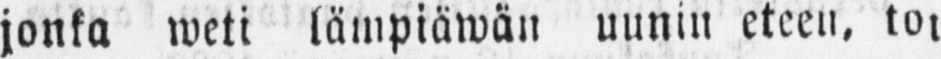jonka weti lämpiäwän uunin eteen, toi,
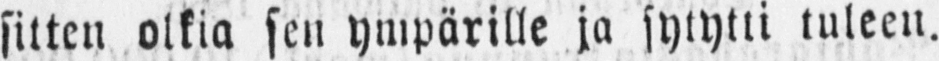sitten olkia sen ympärille ja sytytti tuleen.
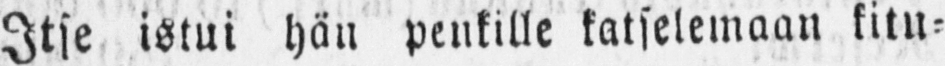Itse istui hän penkille katselemaan kitu-
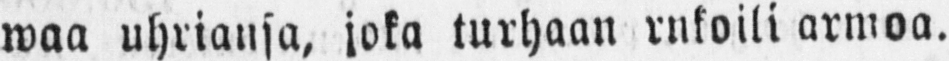waa uhriansa, joka turhaan rukoili armoa.
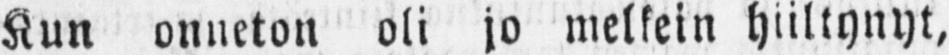Kun onneton oli jo melkein hiiltynyt,
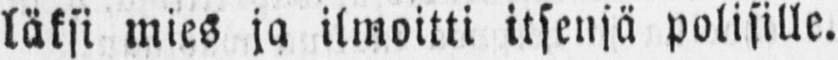läksi mies ja ilmoitti itsensä polisille.
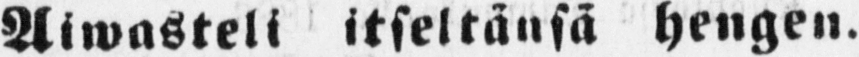Aiwasteli itseltänsä hengen.
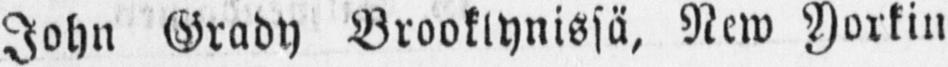John Grady Brooklynissä, New Yorkin
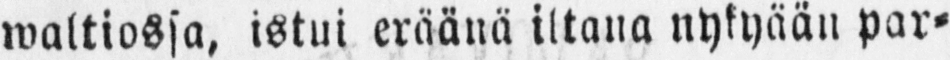waltiossa, istui eräänä iltana nykyään par-
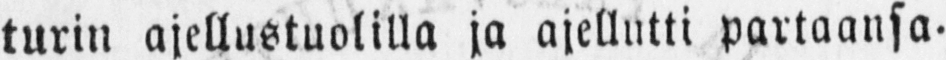turin ajellustuolilla ja ajellutti partaansa-
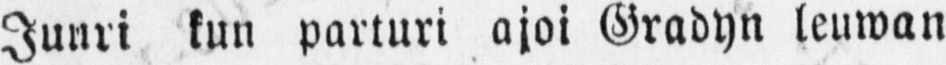Juuri kun parturi ajoi Gradyn leuwan
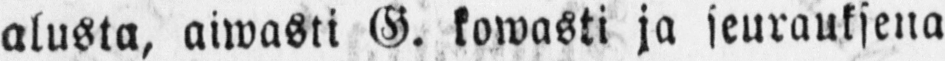alusta, aiwasti G. kowasti ja seurauksena
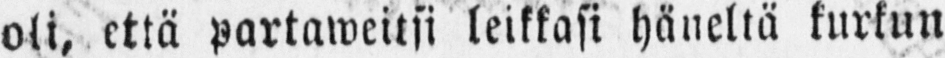oli, että partaweitsi leikkasi häneltä kurkun
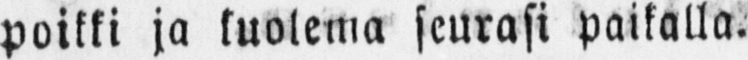poikki ja kuolema seurasi paikalla.
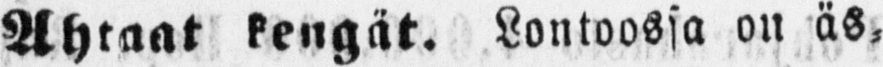Ahtaat kengät. Lontoossa on äs-
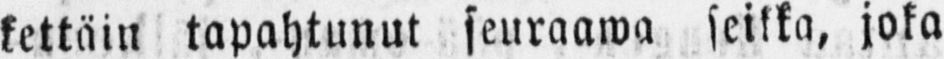kettäin tapahtunut seuraawa seikka, joka
